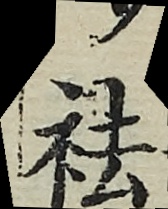袪
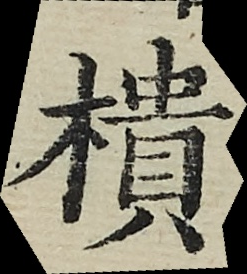樻
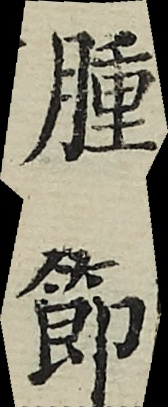腫節
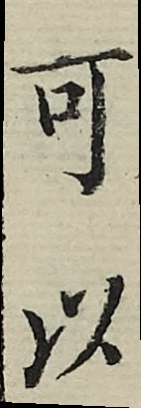可以
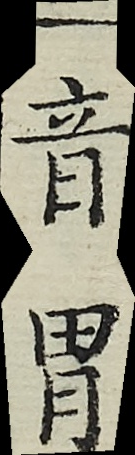音胃
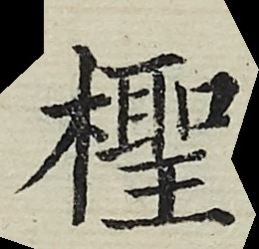檉
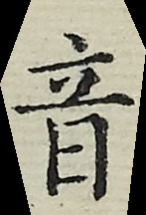音
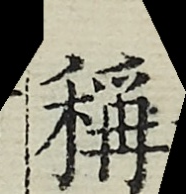稱
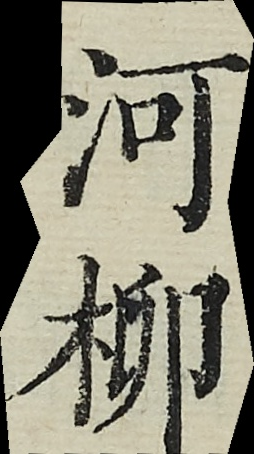河柳
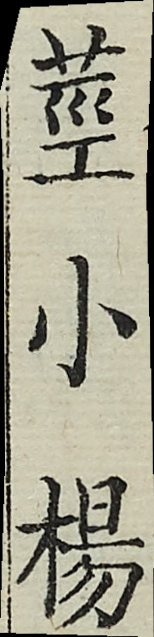莖小楊
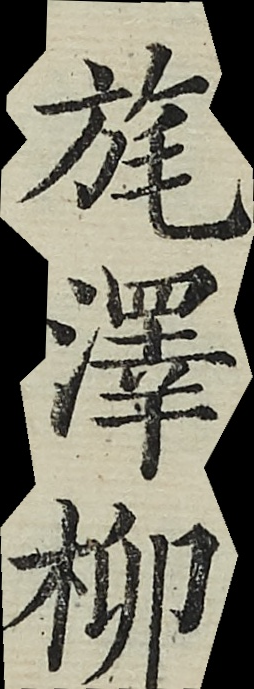旄澤柳
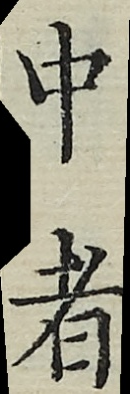中者
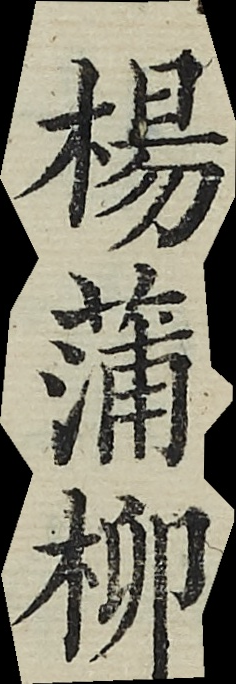楊蒲柳
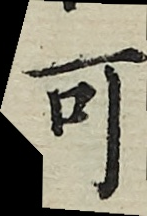可
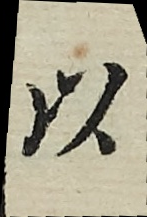以
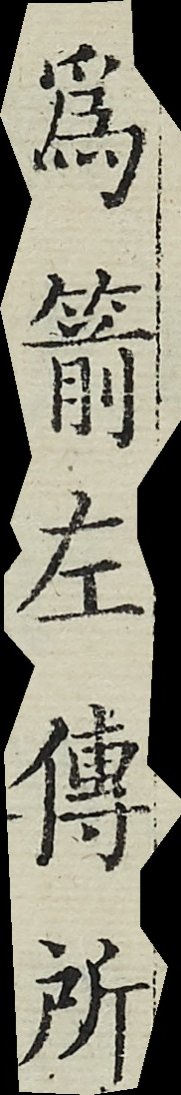為箭左傳所
